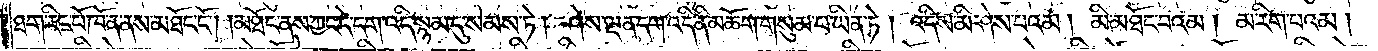ཐག་རིང་པོ་ཁོ་ན་ནས་མཐོང་ངོ༌། །མཐོང་ནས་ཀྱང་དེ་དག་འདི་སྙམ་དུ་སེམས་ཏེ། ཤེས་ལྡན་དག་འདི་ནི་མཆོག་གསུམ་པ་ཡིན་ཏེ། འདིས་མི་ཤེས་པའམ། མི་མཐོང་བའམ། མ་རིག་པའམ།
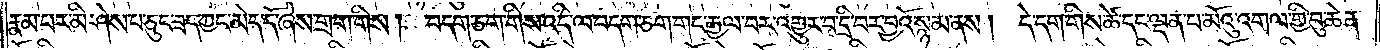རྣམ་པར་མི་ཤེས་པ་ཅུང་ཟད་ཀྱང་མེད་དོ་ཞེས་གྲག་གིས། བདག་ཅག་གིས་འདི་ལ་བདག་ཅག་གང་རྒྱལ་བར་འགྱུར་བ་དྲི་བར་བྱའོ་སྙམ་ནས། དེ་དག་གིས་ཚེ་དང་ལྡན་པ་མོའུ་འགལ་གྱི་བུ་ཆེན་
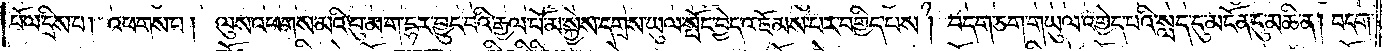པོ་ལ་དྲིས་པ། འཕགས་པ། ལུས་འཕགས་མའི་བུ་མ་ག་དྷར་བྱུང་བའི་རྒྱལ་པོ་མ་སྐྱེས་དགྲས་ཡུལ་སྤོང་བྱེད་འཇོམས་པར་བགྱིད་པས། བདག་ཅག་གཡུལ་འགྱེད་པའི་སླད་དུ་མངོན་དུ་མཆི་ན། བདག་
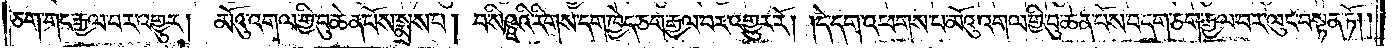ཅག་གང་རྒྱལ་བར་འགྱུར། མོའུ་འགལ་གྱི་བུ་ཆེན་པོས་སྨྲས་པ། བ་སིཥྛའི་རིགས་དག་ཁྱེད་ཅག་རྒྱལ་བར་འགྱུར་རོ། །དེ་དག་འཕགས་པ་མོའུ་འགལ་གྱི་བུ་ཆེན་པོས་བདག་ཅག་རྒྱལ་བར་ལུང་བསྟན་ཏོ། །
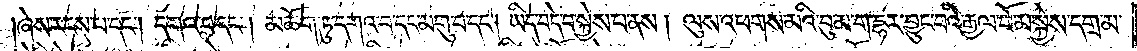ཞེས་རངས་པ་དང༌། དགའ་བ་དང༌། མཆོག་ཏུ་དགའ་བ་དང་མགུ་བ་དང༌། ཡིད་བདེ་བ་སྐྱེས་པ་ནས། ལུས་འཕགས་མའི་བུ་མ་ག་དྷར་བྱུང་བའི་རྒྱལ་པོ་མ་སྐྱེས་དགྲ་མ་
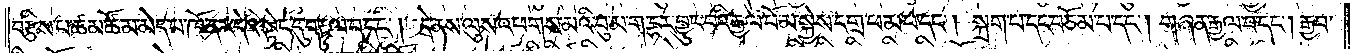བརྩིས་པ་ཚམ་ཚོམ་མེད་པ་ཁོ་ནར་དེའི་སྟེང་དུ་བརྟུལ་བ་དང༌། དེ་ནས་ལུས་འཕགས་མའི་བུ་མ་ག་དྷར་བྱུང་བའི་རྒྱལ་པོ་མ་སྐྱེས་དགྲ་ཕམ་པ་དང༌། སྐྲག་པ་དང་བཅོམ་པ་དང༌། གཞན་རྒྱལ་བ་དང༌། རྒྱབ་
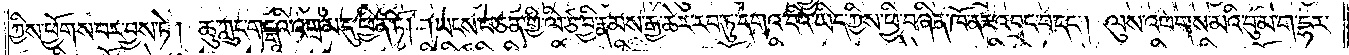ཀྱིས་ཕྱོགས་པར་བྱས་ཏེ། ཆུ་ཀླུང་གངྒཱའི་འགྲམ་དུ་ཕྱིན་ཏོ། །ཡངས་པ་ཅན་གྱི་ལི་ཙ་བྱི་རྣམས་རྒྱ་ཆེར་རབ་ཏུ་དགའ་བའི་ཡིད་ཀྱིས་ཕྱི་བཞིན་ཁོ་ནར་འབྲང་བ་དང༌། ལུས་འཕགས་མའི་བུ་མ་ག་དྷར་
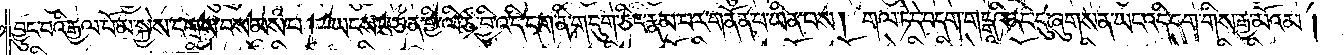བྱུང་བའི་རྒྱལ་པོ་མ་སྐྱེས་དགྲས་བསམས་པ། ཡངས་པ་ཅན་གྱི་ལི་ཙ་བྱི་འདི་དག་ནི་གདུག་ཅིང་རྣམ་པར་གནོན་པ་ཡིན་པས། གལ་ཏེ་དེ་བདག་གངྒཱའི་ནང་དུ་ཞུགས་ན་ཡང་འདི་དག་གིས་རྒྱ་མོའམ།
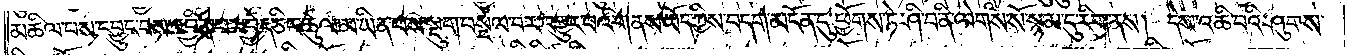མཆིལ་པས་དབྱུང་བས་འབྱིན་པར་བྱེད་ཅིང་ཚུལ་མ་ཡིན་པས་སྡུག་བསྔལ་བར་འགྱུར་བའི་གནས་ཡོད་ཀྱིས་བདག་མངོན་དུ་ཕྱོགས་ཏེ་ཤི་བ་ནི་ལེགས་སོ་སྙམ་དུ་རིག་ནས། དེས་འཆི་བའི་ཤུགས་
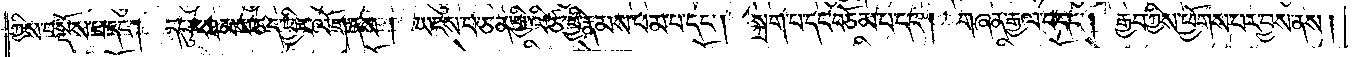ཀྱིས་བསྡོས་པ་དང༌། དཔུང་ཐམས་ཅད་ཕྱིར་ལོག་ནས། ཡངས་པ་ཅན་གྱི་ལི་ཙ་བྱི་རྣམས་ཕམ་པ་དང༌། སྐྲག་པ་དང་བཅོམ་པ་དང༌། གཞན་རྒྱལ་བ་དང༌། རྒྱབ་ཀྱིས་ཕྱོགས་པར་བྱས་ནས།
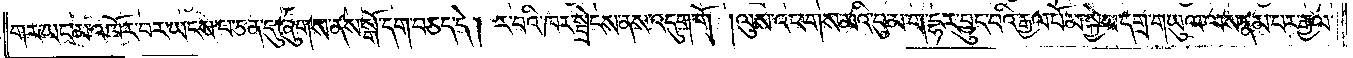གར་ཡང་མ་འཁོར་བར་ཡངས་པ་ཅན་དུ་ཞུགས་ནས་སྒོ་དག་བཅད་དེ། ར་བའི་ཁར་སྦྲེངས་ནས་འདུག་གོ །ལུས་འཕགས་མའི་བུ་མ་ག་དྷར་བྱུང་བའི་རྒྱལ་པོ་མ་སྐྱེས་དགྲ་གཡུལ་ལས་རྣམ་པར་རྒྱལ་
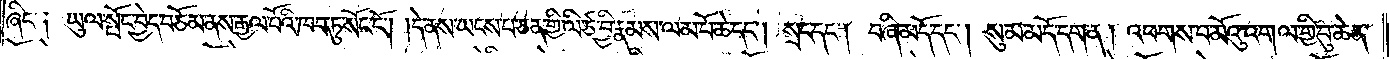ཞིང་༑ ཡུལ་སྤོང་བྱེད་བཅོམ་ནས་རྒྱལ་པོའི་ཁབ་ཏུ་སོང་ངོ༌། །དེ་ནས་ཡངས་པ་ཅན་གྱི་ལི་ཙ་བྱི་རྣམས་ལམ་པོ་ཆེ་དང༌། སྲང་དང༌། བཞི་མདོ་དང༌། སུམ་མདོ་དག་ན། འཕགས་པ་མོའུ་འགལ་གྱི་བུ་ཆེན་
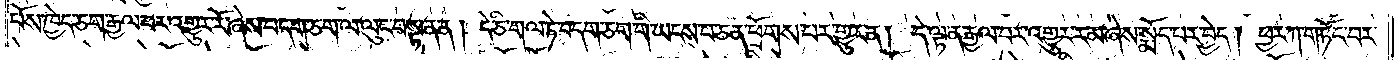པོས་ཁྱེད་ཅག་རྒྱལ་བར་འགྱུར་རོ་ཞེས་བདག་ཅག་ལ་ལུང་བསྟན་ན། དེ་ཅི་གལ་ཏེ་བདག་ཅག་གི་ཡངས་པ་ཅན་ཕྲོགས་པར་གྱུར་ན། དེ་ལྟ་ན་རྒྱལ་བར་འགྱུར་རམ་ཞེས་སྨོད་པར་བྱེད། ཕྱར་ཀ་གཏོང་བར་
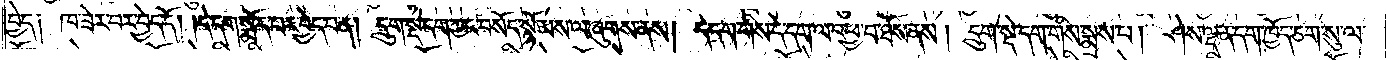བྱེད༑ ཁ་ཟེར་བར་བྱེད་དོ། །དེ་དག་སྨོད་པར་བྱེད་པ་ན། དྲུག་སྡེ་དག་ཀྱང་བསོད་སྙོམས་ལ་ཞུགས་ནས། དེ་དག་གིས་དེ་དག་ལ་འཕྱ་བ་ཐོས་ནས། དྲུག་སྟེ་དག་གིས་སྨྲས་པ། ཤེས་ལྡན་དག་ཁྱོད་ཅག་སུ་ལ་
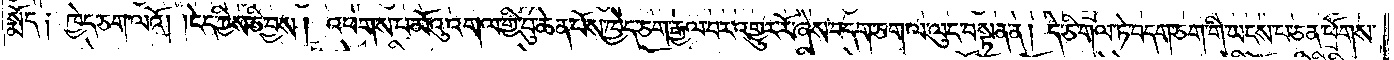སྨོད༑ ཁྱེད་ཅག་ལའོ། །ངེད་ཀྱིས་ཅི་བྱས། འཕགས་པ་མོའུ་འགལ་གྱི་བུ་ཆེན་པོས་ཁྱེད་ཅག་རྒྱལ་བར་འགྱུར་རོ་ཞེས་བདག་ཅག་ལ་ལུང་བསྟན་ན། དེ་ཅི་གལ་ཏེ་བདག་ཅག་གི་ཡངས་པ་ཅན་ཕྲོགས་
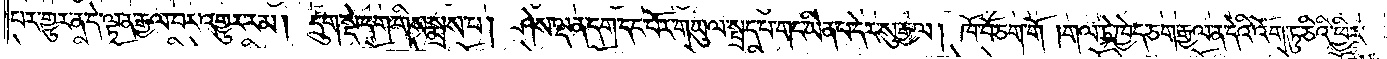པར་གྱུར་ན་དེ་ལྟ་ན་རྒྱལ་བར་འགྱུར་རམ། དྲུག་སྡེ་དག་གིས་སྨྲས་པ། ཤེས་ལྡན་དག་དང་པོར་གཡུལ་སྤྲད་པ་གང་ཡིན་པ་དེར་སུ་རྒྱལ། ཁོ་བོ་ཅག་གོ །གལ་ཏེ་ཁྱེད་ཅག་རྒྱལ་ན་དེའི་འོག་ཏུ་ཅིའི་ཕྱིར་
